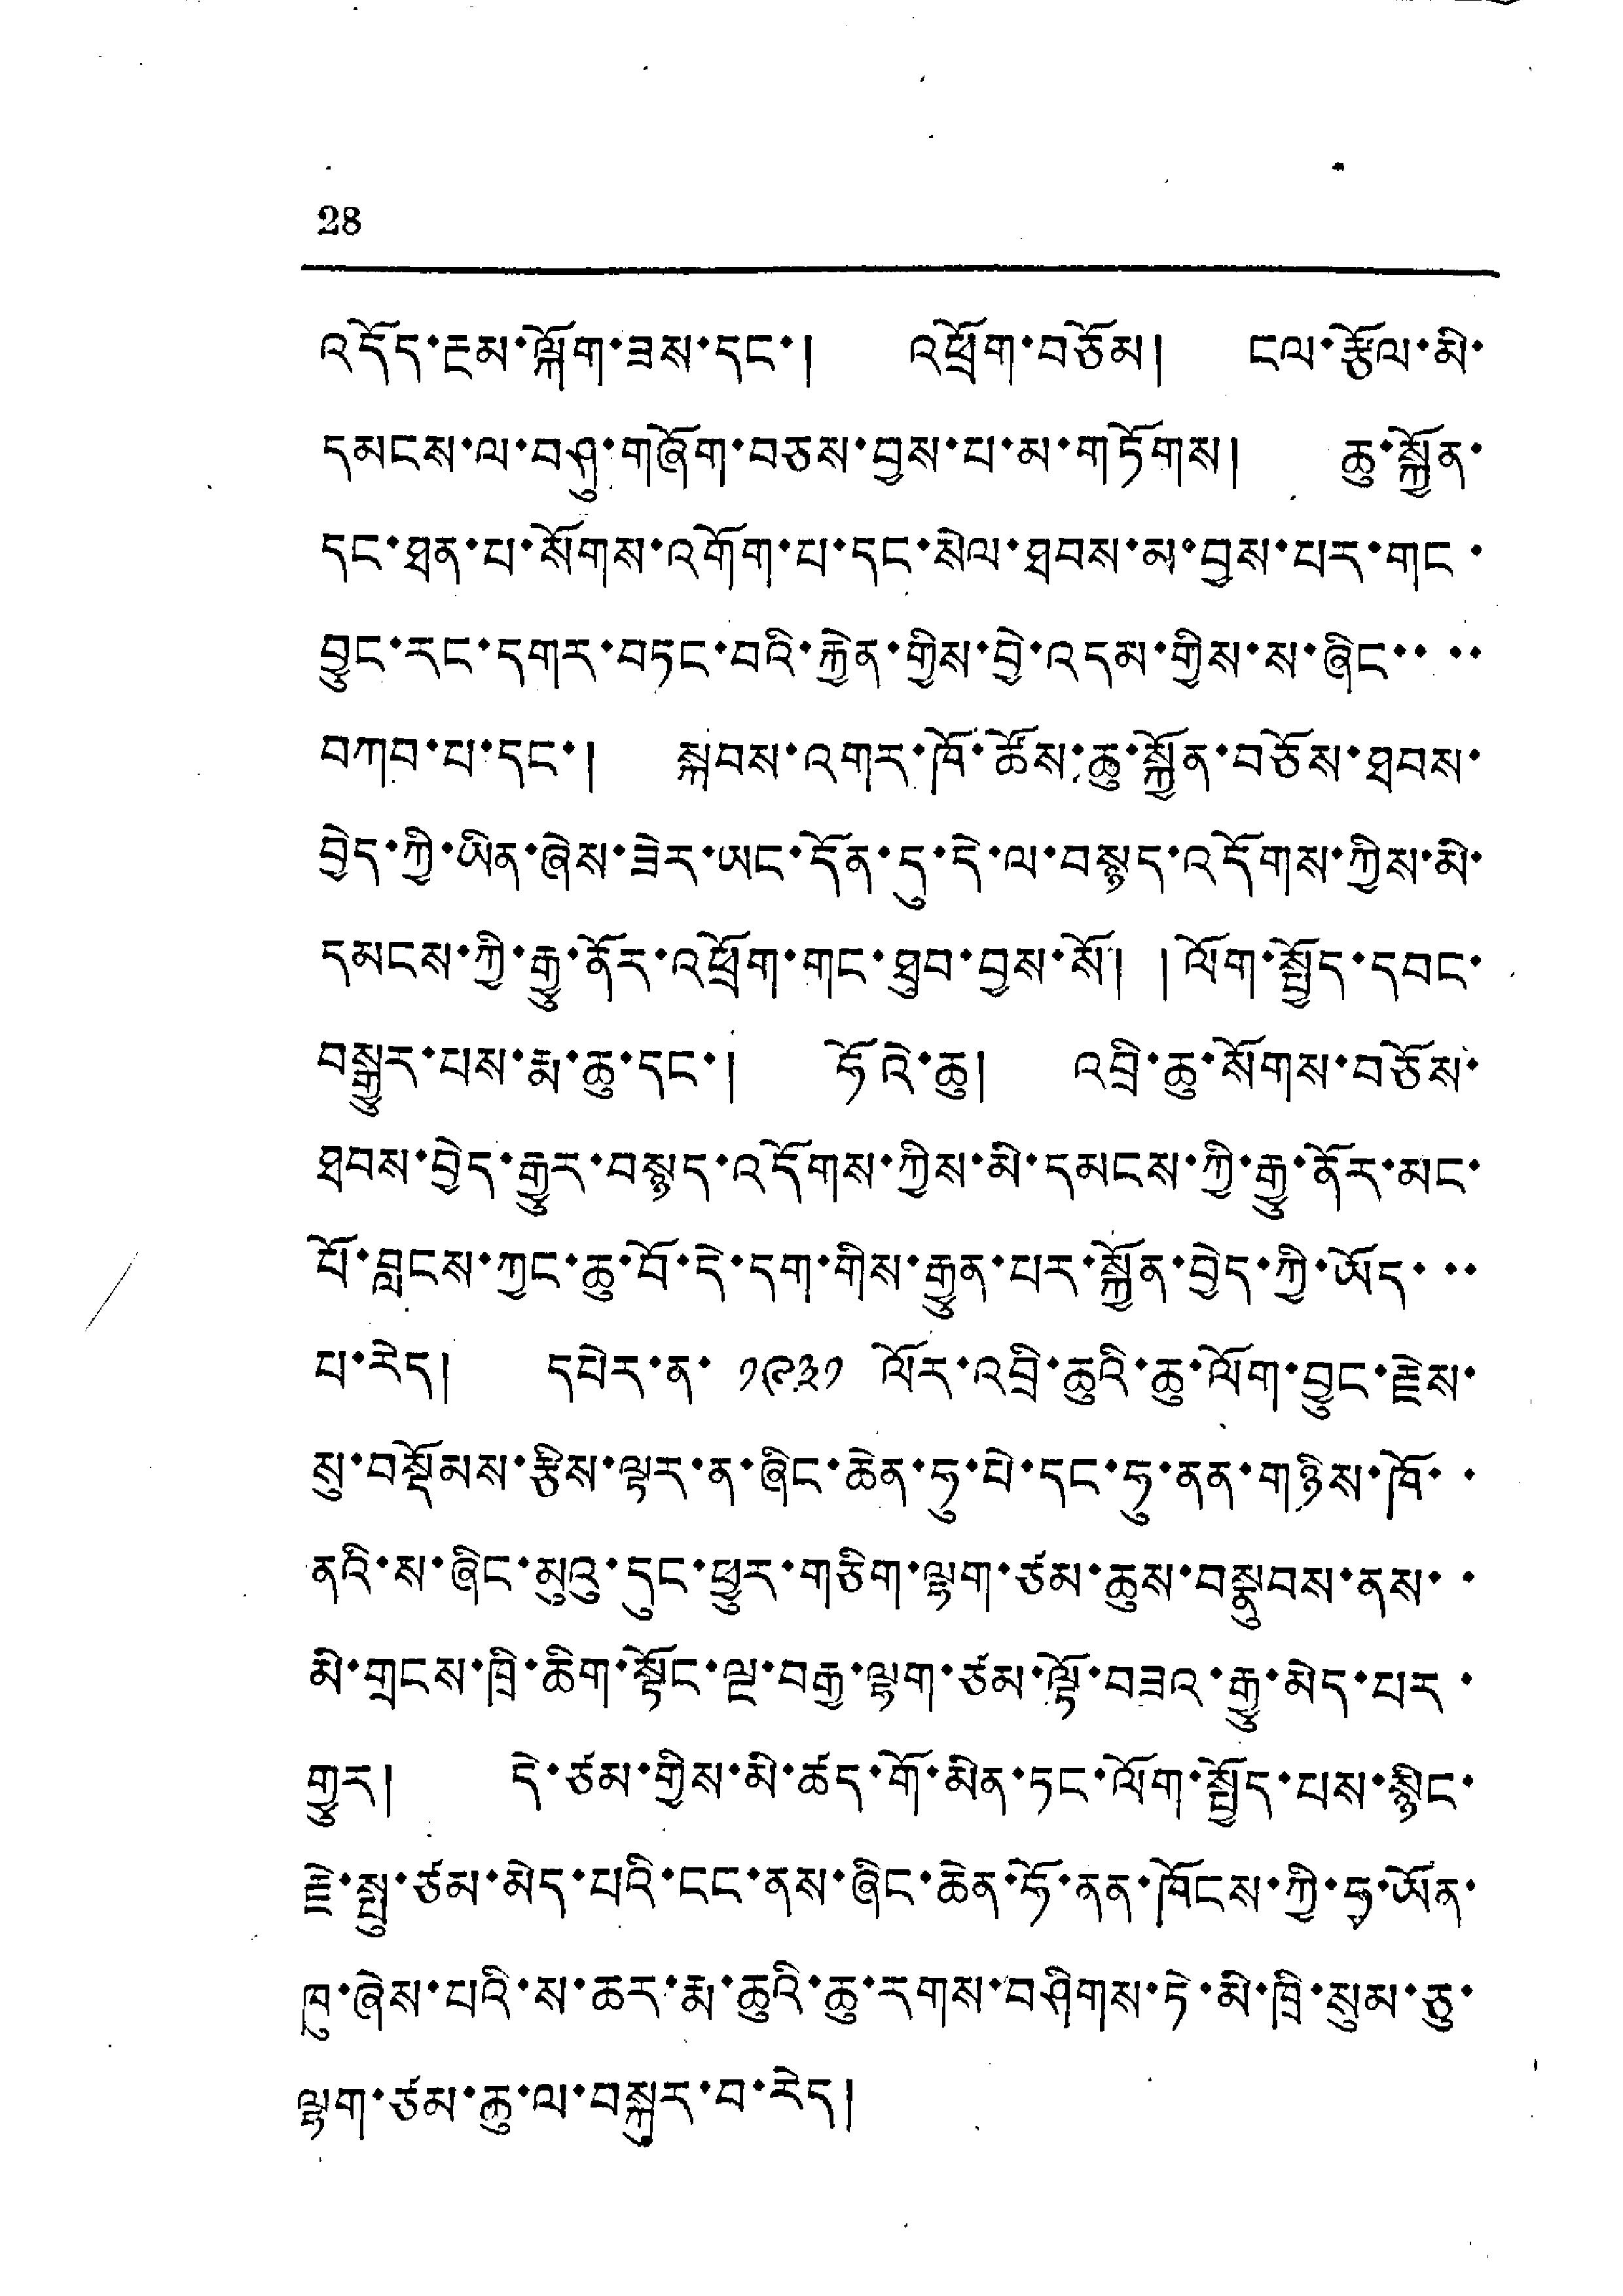28
འདོད་རྔམ་ལྐོག་ཟས་དང་། འཕྲོག་བཅོམ། ངལ་རྩོལ་མི་
དམངས་ལ་བཤུ་གཞོག་བཅས་བྱས་པ་མ་གཏོགས། ཆུ་སྐྱོན་
དང་ཐན་པ་སོགས་འགོག་པ་དང་སེལ་ཐབས་མ་བྱས་པར་གང་
བྱུང་རང་དགར་བཏང་བའི་རྐྱེན་གྱིས་བྱེ་འདམ་གྱིས་ས་ཞིང་་་་
བཀབ་པ་དང་། སྐབས་འགར་ཁོ་ཚོས་ཆུ་སྐྱོན་བཅོས་ཐབས་
བྱེད་ཀྱི་ཡིན་ཞེས་ཟེར་ཡང་དོན་དུ་དེ་ལ་བསྙད་འདོགས་ཀྱིས་མི་
དམངས་ཀྱི་རྒྱུ་ནོར་འཕྲོག་གང་ཐུབ་བྱས་སོ། །ལོག་སྤྱོད་དབང་
བསྒྱུར་པས་རྨ་ཆུ་དང་། ཧོའེ་ཆུ། འབྲི་ཆུ་སོགས་བཅོས་
ཐབས་བྱེད་རྒྱུར་བསྙད་འདོགས་ཀྱིས་མི་དམངས་ཀྱི་རྒྱུ་ནོར་མང་
པོ་བླངས་ཀྱང་ཆུ་བོ་དེ་དག་གིས་རྒྱུན་པར་སྐྱོན་བྱེད་ཀྱི་ཡོད་་་
པ་རེད། དཔེར་ན་ ༡༩༣༡ ལོར་འབྲི་ཆུའི་ཆུ་ལོག་བྱུང་རྗེས་
སུ་བསྡོམས་རྩིས་ལྟར་ན་ཞིང་ཆེན་ཧུ་པེ་དང་ཧུ་ནན་གཉིས་ཁོ་་
ནའི་ས་ཞིང་མུའུ་དུང་ཕྱུར་གཅིག་ལྷག་ཙམ་ཆུས་བསྣུབས་ནས་་
མི་གྲངས་ཁྲི་ཆིག་སྟོང་ལྔ་བརྒྱ་ལྷག་ཙམ་ལྟོ་བཟའ་རྒྱུ་མེད་པར་
གྱུར། དེ་ཙམ་གྱིས་མི་ཚད་གོ་མིན་ཏང་ལོག་སྤྱོད་པས་སྙིང་
རྗེ་སྤུ་ཙམ་མེད་པའི་ངང་ནས་ཞིང་ཆེན་ཧོ་ནན་ཁོངས་ཀྱི་ཧྭ་ཡོན་
ཁུ་ཞེས་པའི་ས་ཆར་རྨ་ཆུའི་ཆུ་རགས་བཤིགས་ཏེ་མི་ཁྲི་སུམ་ཅུ་
ལྷག་ཙམ་ཆུ་ལ་བསྐུར་བ་རེད།
